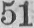51
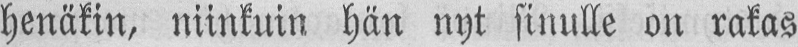henäkin, niinkuin hän nyt sinulle on rakas
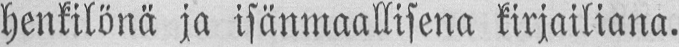henkilönä ja isänmaallisena kirjailiana.
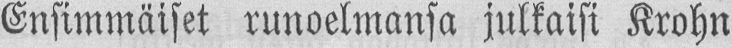Ensimmäiset runoelmansa julkaisi Krohn
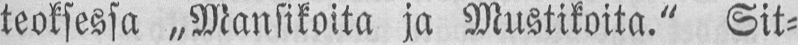teoksessa „Mansikoita ja Mustikoita." Sit-
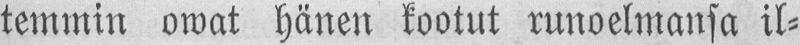temmin owat hänen kootut runoelmansa il-
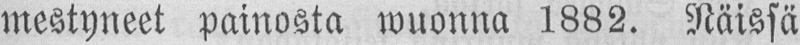mestyneet painosta wuonna 1882. Näissä
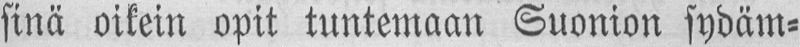sinä oikein opit tuntemaan Suonion sydäm-
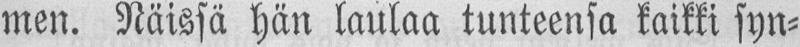men. Näissä hän laulaa tunteensa kaikki syn-
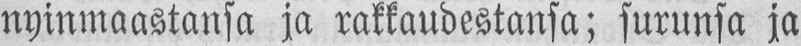nyinmaastansa ja rakkaudestansa; surunsa ja
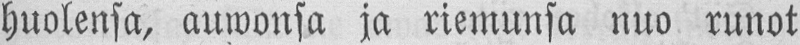huolensa, auwonsa ja riemunsa nuo runot
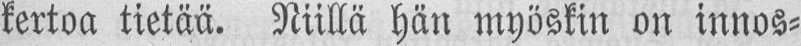kertoa tietää. Niillä hän myöskin on innos-
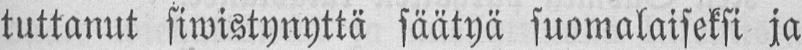tuttanut siwistynyttä säätyä suomalaiseksi ja
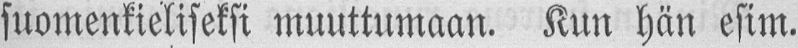suomenkieliseksi muuttumaan. Kun hän esim.
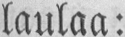laulaa:
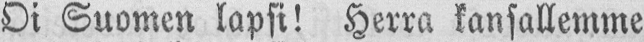Oi Suomen lapsi! Herra kansallemme
